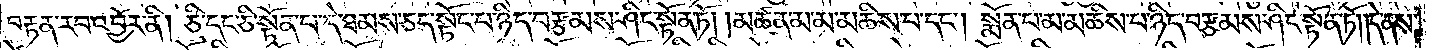བརྟན་རབ་འབྱོར་ནི། ཅི་དང་ཅི་སྟོན་པ་དེ་ཐམས་ཅད་སྟོང་པ་ཉིད་བརྩམས་ཤིང་སྟོན་ཏོ། །མཚན་མ་མ་མཆིས་པ་དང༌། སྨོན་པ་མ་མཆིས་པ་ཉིད་བརྩམས་ཤིང་སྟོན་ཏོ། །དེ་ནས་
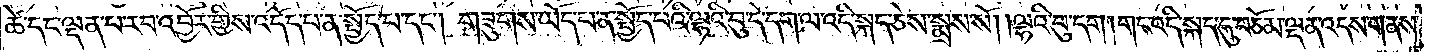ཚེ་དང་ལྡན་པ་རབ་འབྱོར་གྱིས་འདོད་པ་ན་སྤྱོད་པ་དང༌། གཟུགས་ཡོད་པ་ན་སྤྱོད་པའི་ལྷའི་བུ་དེ་དག་ལ་འདི་སྐད་ཅེས་སྨྲས་སོ། །ལྷའི་བུ་དག །གང་འདི་སྐད་དུ་བཅོམ་ལྡན་འདས་གནས་
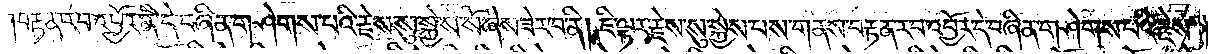བརྟན་རབ་འབྱོར་ནི་དེ་བཞིན་གཤེགས་པའི་རྗེས་སུ་སྐྱེས་སོ་ཞེས་ཟེར་བ་ནི། ཇི་ལྟར་རྗེས་སུ་སྐྱེས་པས་གནས་བརྟན་རབ་འབྱོར་དེ་བཞིན་གཤེགས་པའི་རྗེས་
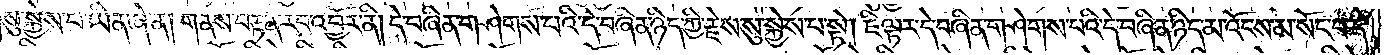སུ་སྐྱེས་པ་ཡིན་ཞེ་ན། གནས་བརྟན་རབ་འབྱོར་ནི། དེ་བཞིན་གཤེགས་པའི་དེ་བཞིན་ཉིད་ཀྱི་རྗེས་སུ་སྐྱེས་པ་སྟེ། ཇི་ལྟར་དེ་བཞིན་གཤེགས་པའི་དེ་བཞིན་ཉིད་མ་འོངས་མ་སོང་བ་དེ་
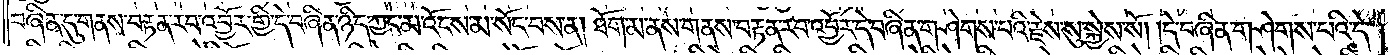བཞིན་དུ་གནས་བརྟན་རབ་འབྱོར་གྱི་དེ་བཞིན་ཉིད་ཀྱང་མ་འོངས་མ་སོང་བས་ན། ཐོག་མ་ནས་གནས་བརྟན་རབ་འབྱོར་དེ་བཞིན་གཤེགས་པའི་རྗེས་སུ་སྐྱེས་སོ། །དེ་བཞིན་གཤེགས་པའི་དེ་
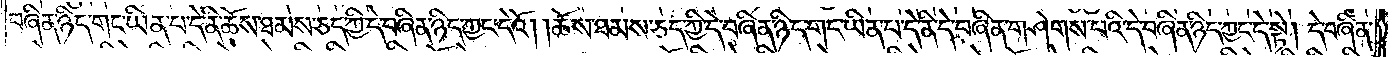བཞིན་ཉིད་གང་ཡིན་པ་དེ་ནི་ཆོས་ཐམས་ཅད་ཀྱི་དེ་བཞིན་ཉིད་ཀྱང་དེའོ། །ཆོས་ཐམས་ཅད་ཀྱི་དེ་བཞིན་ཉིད་གང་ཡིན་པ་དེ་ནི་དེ་བཞིན་གཤེགས་པའི་དེ་བཞིན་ཉིད་ཀྱང་དེ་སྟེ། དེ་བཞིན་
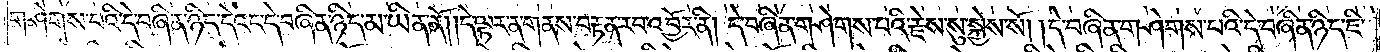གཤེགས་པའི་དེ་བཞིན་ཉིད་དེའང་དེ་བཞིན་ཉིད་མ་ཡིན་ནོ། །དེ་ལྟར་ན་གནས་བརྟན་རབ་འབྱོར་ནི། དེ་བཞིན་གཤེགས་པའི་རྗེས་སུ་སྐྱེས་སོ། །དེ་བཞིན་གཤེགས་པའི་དེ་བཞིན་ཉིད་ཇི་
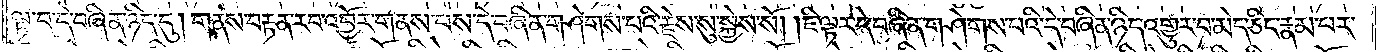ལྟ་བ་དེ་བཞིན་ཉིད་དུ། གནས་བརྟན་རབ་འབྱོར་གནས་པས་དེ་བཞིན་གཤེགས་པའི་རྗེས་སུ་སྐྱེས་སོ། །ཇི་ལྟར་དེ་བཞིན་གཤེགས་པའི་དེ་བཞིན་ཉིད་འགྱུར་བ་མེད་ཅིང་རྣམ་པར་
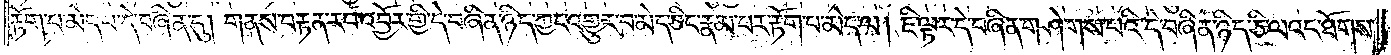རྟོག་པ་མེད་པ་དེ་བཞིན་དུ། གནས་བརྟན་རབ་འབྱོར་གྱི་དེ་བཞིན་ཉིད་ཀྱང་འགྱུར་བ་མེད་ཅིང་རྣམ་པར་རྟོག་པ་མེད་ལ། ཇི་ལྟར་དེ་བཞིན་གཤེགས་པའི་དེ་བཞིན་ཉིད་ཅི་ལའང་ཐོགས་
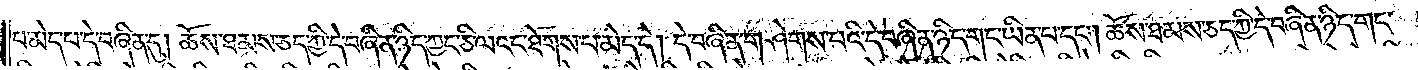པ་མེད་པ་དེ་བཞིན་དུ། ཆོས་ཐམས་ཅད་ཀྱི་དེ་བཞིན་ཉིད་ཀྱང་ཅི་ལའང་ཐོགས་པ་མེད་དེ། དེ་བཞིན་གཤེགས་པའི་དེ་བཞིན་ཉིད་གང་ཡིན་པ་དང༌། ཆོས་ཐམས་ཅད་ཀྱི་དེ་བཞིན་ཉིད་གང་
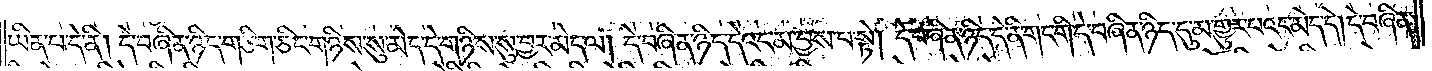ཡིན་པ་དེ་ནི། དེ་བཞིན་ཉིད་གཅིག་ཅིང་གཉིས་སུ་མེད་དེ་གཉིས་སུ་བྱར་མེད་ལ། དེ་བཞིན་ཉིད་དེའང་མ་བྱས་པ་སྟེ། དེ་བཞིན་ཉིད་དེ་ནི་གང་གི་དེ་བཞིན་ཉིད་དུ་མ་གྱུར་པའང་མེད་དེ། དེ་བཞིན་
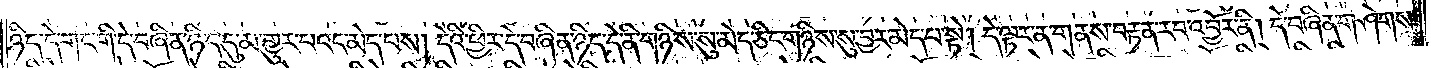ཉིད་དེ་གང་གི་དེ་བཞིན་ཉིད་དུ་མ་གྱུར་པའང་མེད་པས། དེའི་ཕྱིར་དེ་བཞིན་ཉིད་དེ་ནི་གཉིས་སུ་མེད་ཅིང་གཉིས་སུ་བྱར་མེད་པ་སྟེ། དེ་ལྟར་ན་གནས་བརྟན་རབ་འབྱོར་ནི། དེ་བཞིན་གཤེགས་
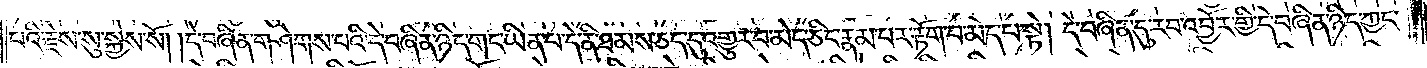པའི་རྗེས་སུ་སྐྱེས་སོ། །དེ་བཞིན་གཤེགས་པའི་དེ་བཞིན་ཉིད་གང་ཡིན་པ་དེ་ནི་ཐམས་ཅད་དུ་འགྱུར་བ་མེད་ཅིང་རྣམ་པར་རྟོག་པ་མེད་པ་སྟེ། དེ་བཞིན་དུ་རབ་འབྱོར་གྱི་དེ་བཞིན་ཉིད་ཀྱང་
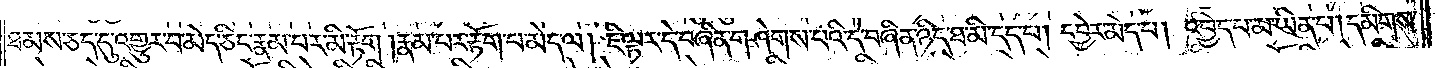ཐམས་ཅད་དུ་འགྱུར་བ་མེད་ཅིང་རྣམ་པར་མི་རྟོག །རྣམ་པར་རྟོག་པ་མེད་ལ། ཇི་ལྟར་དེ་བཞིན་གཤེགས་པའི་དེ་བཞིན་ཉིད་ཐ་མི་དད་པ། དབྱེར་མེད་པ། འབྱེད་པ་མ་ཡིན་པ། དམིགས་
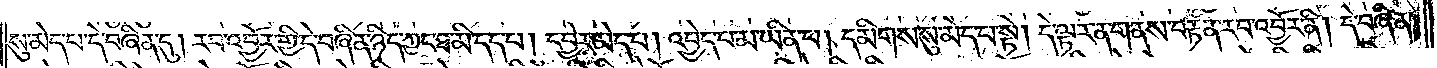སུ་མེད་པ་དེ་བཞིན་དུ། རབ་འབྱོར་གྱི་དེ་བཞིན་ཉིད་ཀྱང་ཐ་མི་དད་པ། དབྱེར་མེད་པ། འབྱེད་པ་མ་ཡིན་པ། དམིགས་སུ་མེད་པ་སྟེ། དེ་ལྟར་ན་གནས་བརྟན་རབ་འབྱོར་ནི། དེ་བཞིན་
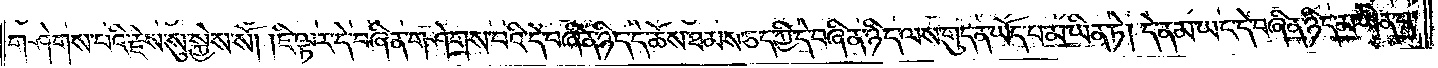གཤེགས་པའི་རྗེས་སུ་སྐྱེས་སོ། །ཇི་ལྟར་དེ་བཞིན་གཤེགས་པའི་དེ་བཞིན་ཉིད་དེ་ཆོས་ཐམས་ཅད་ཀྱི་དེ་བཞིན་ཉིད་ལས་གུད་ན་ཡོད་པ་མ་ཡིན་ཏེ། དེ་ནམ་ཡང་དེ་བཞིན་ཉིད་མ་ཡིན་པ་
